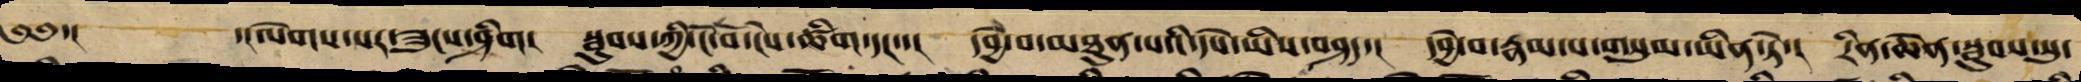༄༅་། ་།ལེགས་པར་ཟུངས་ཤིག། སྦུབས་ཀྱི་ངོ་བོ་ངེས་ཚིག་དང་་། དབྱེ་བ་མཐུན་པའི་དཔེ་ཡིས་བཤད་། དབྱེ་བ་རྣམ་པ་གསུམ་ཡིན་ཏེ་། རིན་ཆེན་སྦུབས་སུ་
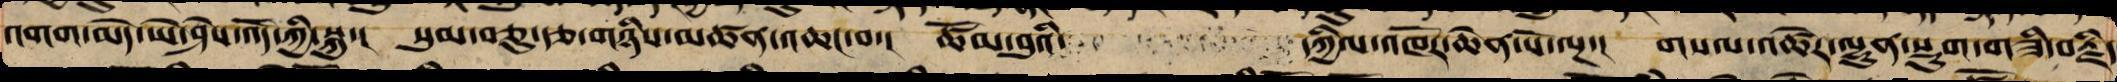འགག་མེད་ཡེ་ཤེས་འོད་ཀྱི་སྐུ་། སུམ་བཅུ་རྩ་གཉིས་མཚན་འཆང་བ་། ཚོམ་བུའི་ དཀྱིལ་འཁོར་ཆེན་པོ་ལྔ་། གསལ་འཚེར་ལྷུན་སྡུག་གཟི་བརྗིད་
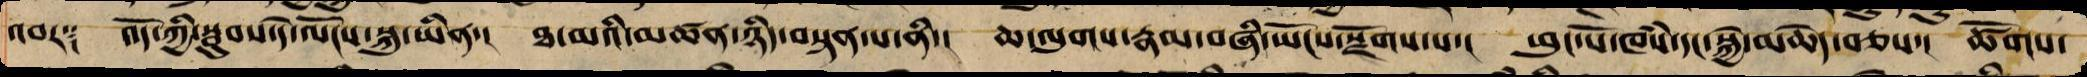འབར༑ འོད་ཀྱི་སྦུབས་དེ་ལོངས་སྐུ་ཡིན་། ཐ་མའི་མཚན་ཉིད་བསྟན་པ་ནི་། ཆ་ལུགས་རྣམ་བཞི་ཡོངས་སྫོགས་པ་། ཕུང་པོ་ཁཾས་དང་སྐྱེ་མཆེད་བཅས་། ཚོགས་
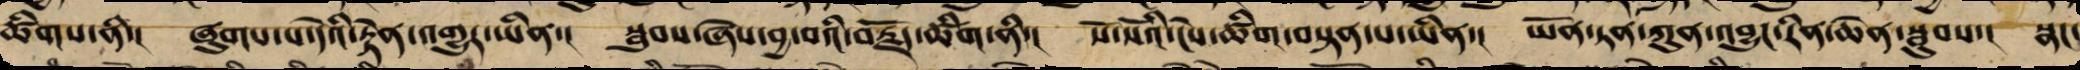ཚིགས་ནི་། ཞུགས་པ་དེའི་རྟེན་འགྱུར་ཡིན་། སྦུབས་ཞེས་བྱ་བའི་བརྗོད་ཚིག་ནི་། སོ་སོའི་ངེས་ཚིག་བསྟན་པ་ཡིན་། ཡོན་ཏན་ཀུན་འབྱུང་རིན་ཆེན་སྦུབས་། སྣང་
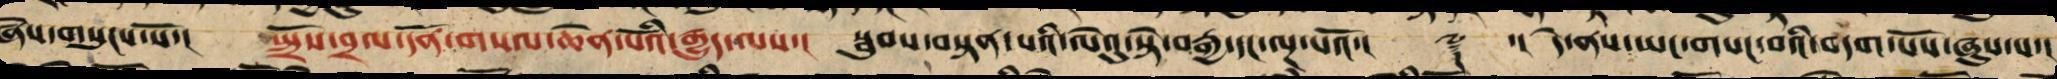ཞེས་གསུངས་སོ་། སྤྲོས་བྲལ་དོན་གསལ་ཆེན་པོའི་རྒྱུད་ལས་། སྦུབས་བསྟན་པའི་ལེའུ་སྟེ་བརྒྱ་དང་ལྔ་པའོ་།། ༈ ་། དེ་ནས་ཡང་གསང་བའི་བདག་པོས་ཞུས་པ་།
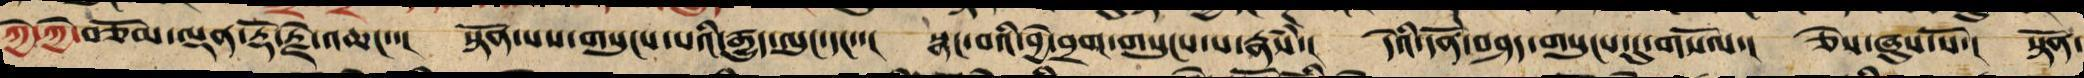ཀྱེ་ཀྱེ་བཅོམ་ལྡན་རྡོ་རྗེ་འཆང་་། སྟོན་པས་གསུངས་པའི་རྒྱུད་ལུང་དང་། སྣང་བའི་བྱེ་བྲག་གསུངས་པ་རྣཾས་། དེའི་དོན་བཤད་གསུང་དུ་གསོལ་། ཅེས་ཞུས་སོ་། སྟོན་
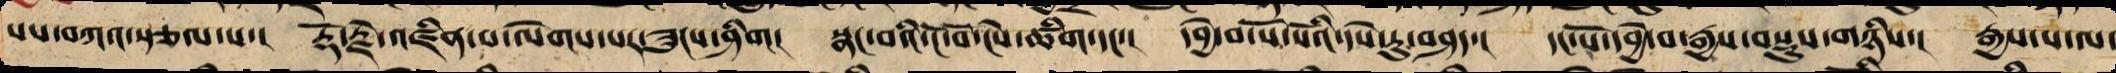པས་བཀའ་སྩལ་པ་། རྡོ་རྗེ་འཛིན་པ་ལེགས་པར་ཟུངས་ཤིག། སྣང་བའི་ངོ་བོ་ངེས་ཚིག་དང་། དབྱེ་བ་སོ་སོའི་དཔེ་རུ་བཤད་། དང་པོ་དབྱེ་བ་རྒྱས་བསྡུས་གཉིས་། རྒྱས་པ་ལ་
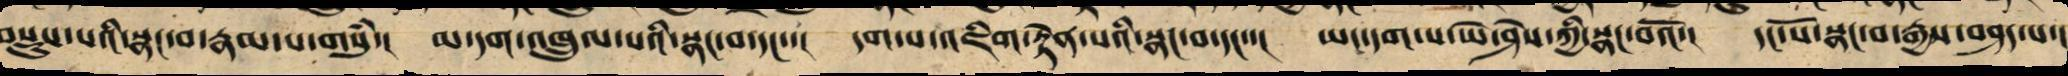བསྡུས་པའི་སྣང་བ་རྣམ་པ་གསུཾ་། མ་དག་འཁྲུལ་པའི་སྣང་བ་དང་་། དག་པ་འཇིག་རྟེན་པའི་སྣང་བ་དང་་། ཡང་དག་པ་ཡེ་ཤེས་ཀྱི་སྣང་བའོ་། དང་པོ་སྣང་བ་རྒྱས་བཤད་པ་།
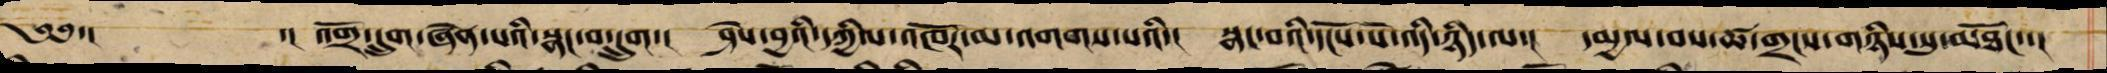༄༅་། ་། འགྲོ་དྲུག་ཞེན་པའི་སྣང་བ་དྲུག་། ཤེས་བྱའི་དཀྱིལ་འཁོར་མ་འགགས་པའི་། སྣང་བའི་དངོས་པོ་འདི་ཉིད་ལ་། དམྱལ་བས་ཚ་གྲང་གཉིས་སུ་མཐོང་་།
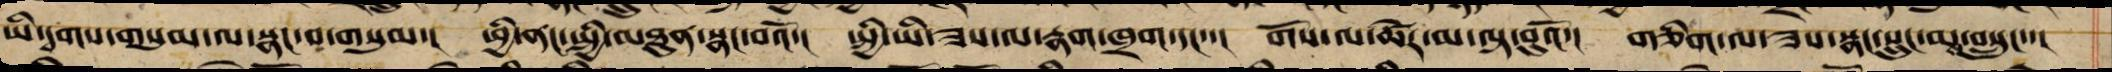ཡི་དྭགས་གསུམ་ལ་སྣང་བ་གསུམ་། ཕྱི་ནང་སྤྱི་མཐུན་སྣང་བའོ་། ཕྱི་ཡི་ཟས་ལ་རྣག་ཁྲག་དང་་། གོས་ལ་ཚེར་མ་ལྟ་བུའོ་། གཅིག་ལ་ཟས་སྣང་སྲུང་མ་བསྲུང་་།
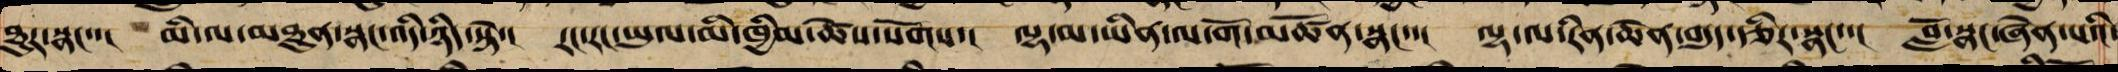ཐུར་སྣང་་། མི་ལ་མཐུན་སྣང་འདི་ཉིད་སྟེ་། རང་རང་ཡུལ་མི་ཁྱིམ་མཚེས་སོགས་། ལྷ་མ་ཡིན་ལ་གོ་མཚོན་སྣང་་། ལྷ་ལ་རིན་ཆེན་བདུད་རྩིར་སྣང་་། བློ་སྣང་ཞེན་པའི་
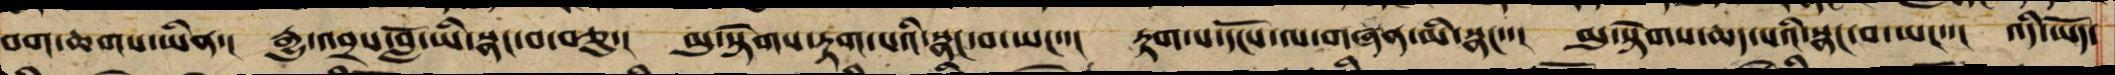བག་ཆགས་ཡིན་། རྒྱུ་འབྲས་བློ་ཡི་སྣང་བ་བཅུ་། མུ་སྟེགས་རྟག་པའི་སྣང་བ་ཡང་་། རྟག་པ་དངོས་ལ་གཞན་མི་སྣང་་། མུ་སྟེགས་ཆད་པའི་སྣང་བ་ཡང་་། འདི་ཡོད་
